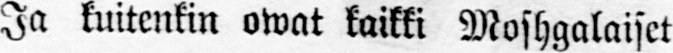Ja kuitenkin owat kaikki Moshgalaiset
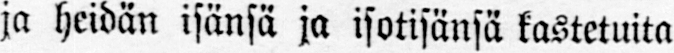ja heidän isänsä ja isotisänsä kasteluita
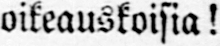oikeauskoisia!
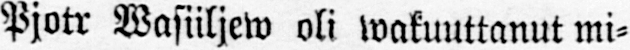Pjotr Wasiiljew oli wakuuttanut mi-
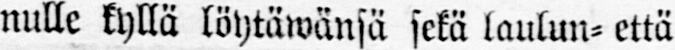nulle kyllä löytäwänsä sekä laulun- että
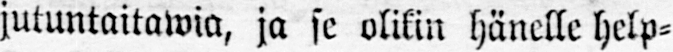jutuntaitawia, ja se olikin hänelle help-
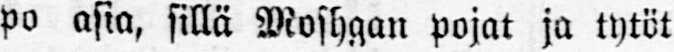po asia, sillä Moshgan pojat ja tytöt
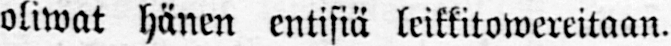oliwat hänen entisiä leikkitowereitaan.
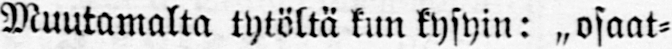Muutamalta tytöltä kun kysyin: ˶osaat-
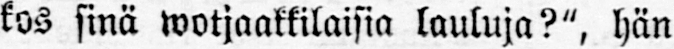kos sinä wotjaakkilaisia lauluja?", hän
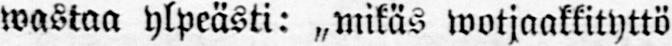wastaa ylpeästi: „mikäs wotjaakkityttö
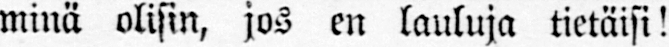minä olisin, jos en lauluja tietäisi!
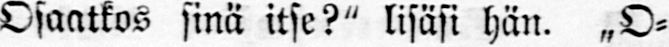Osaatkos sinä itse?" lisäsi hän. „O-
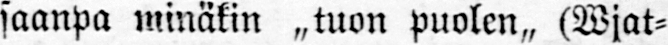saanpa minäkin „tuon puolen„ (Wjat-
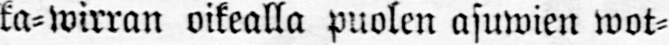ka-wirran oikealla puolen asuwien wot-
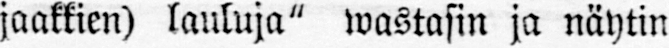jaakkien) lauluja" wastasin ja näytin
